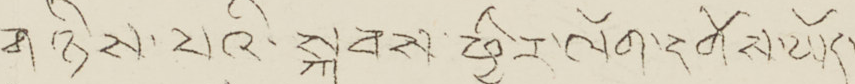གཉིས་པའི་སྐབས་ཕྱིར་ལོག་དགོས་ཡོད་
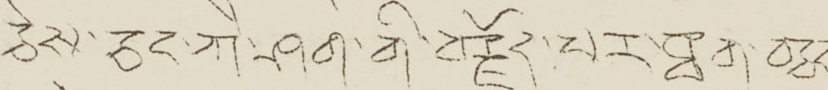ཅེས་ཅང་ཀཻ་ཤག་གི་བརྗོད་པར་ཐག་བཅད་
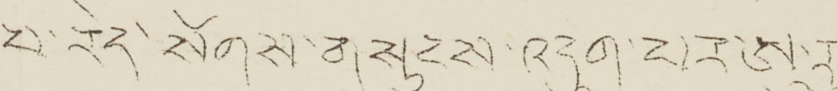པ་རེད་སོགས་གསུངས་འདུག་པར་ཨུ་རུ་
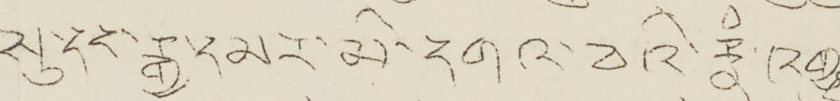སུ་དང་རྒྱ་དམར་མི་དགའ་བའི་རྣཾ་འགྱུར་
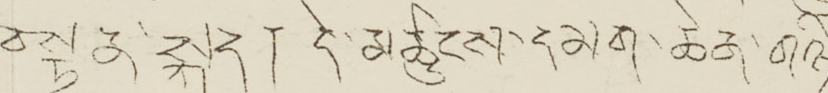བསྟན་སྐད། དེ་མཚུངས་དམག་ཆེན་གཉིས་
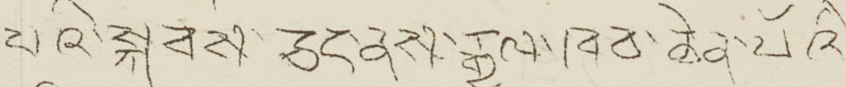པའི་སྐབས་ཅང་ནས་རྒྱལ་ཐབ་ཆེན་པོའི་
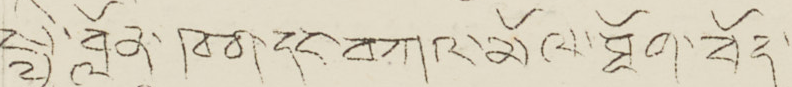སྤྱི་བློན་ཁག་དང་བཀའ་མོལ་ཐོག་བོད་
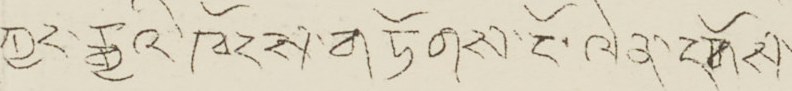ཀྱང་རྒྱའི་ཁོངས་གཏོགས་ངོ་ལེན་དགོས་
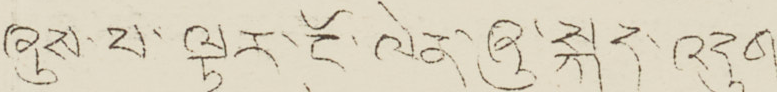ཞུས་པ་ལྟར་ངོ་ལེན་ཞུ་སྐད་འདུག།།
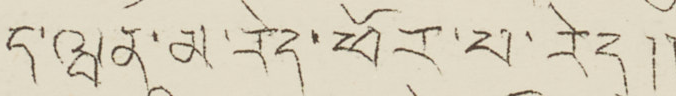ད་ཝན་མ་རེད་ཕོར་པ་རེད།།
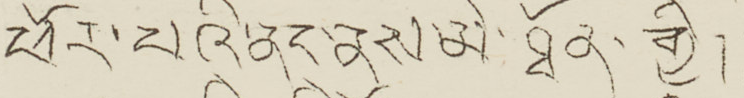ཕོར་པའི་ནང་ནས་མེ་ཐོན་གྱི།།
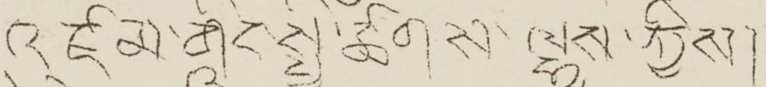འཛམ་གླིང་སྤྱི་ཚོགས་ལྷས་ཀྱིས།།
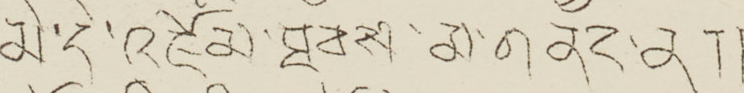མེ་དེ་འཇོམ་ཐབས་མ་གནང་ན།།
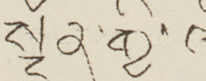སྔོན་གྱི་ལིག་
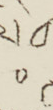ཾ
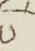ཾ
